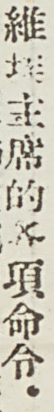維埃主席的各項命令。
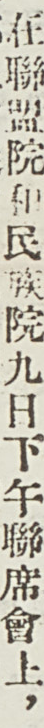在聯盟院和民族院九日下午聯席會上，
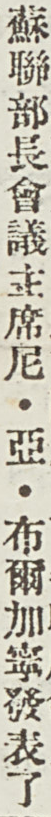蘇聯部長會議主席尼・亞・布爾加寧發表了
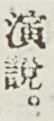演說。
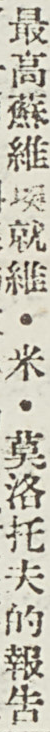最高蘇維埃就維・米・莫洛托夫的報告
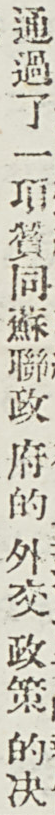通過了一項贊同蘇聯政府的外交政策的決
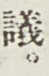議。
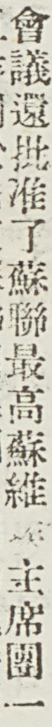會議還批准了蘇聯最高蘇維埃主席團一
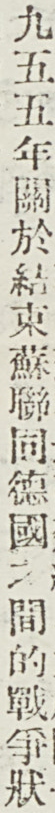九五五年關於結束蘇聯同德國之間的戰爭狀
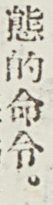態的命令。
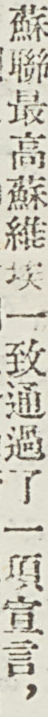蘇聯最高蘇維埃一致通過了一項宣言，
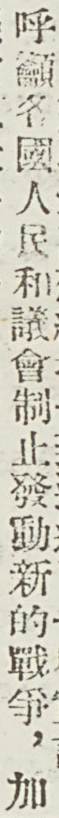呼籲各國人民和議會制止發動新的戰爭，加
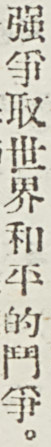強爭取世界和平的鬥爭。
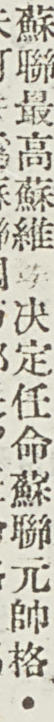蘇聯最高蘇維埃決定任命蘇聯元帥格・
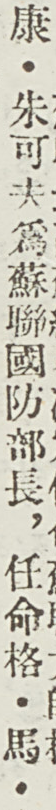康・朱可夫爲蘇聯國防部長，任命格・馬・
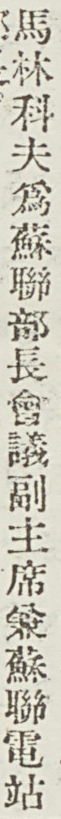馬林科夫爲蘇聯部長會議副主席兼蘇聯電站
